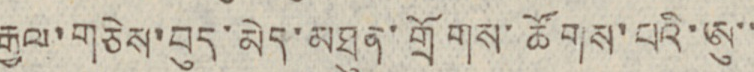རྒྱལ་གཅེས་བུད་མེད་མཐུན་གྲོགས་ཚོགས་པའི་ཨུ་་
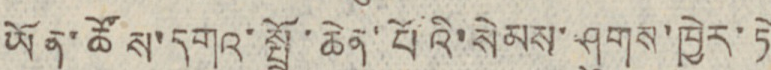ཡོན་ཚོས་དགའ་སྤྲོ་ཆེན་པོའི་སེམས་ཤུགས་ཁྱེར་ཏེ
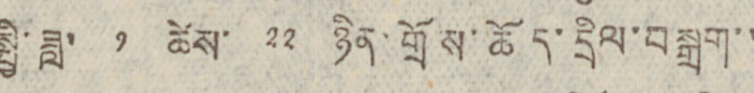སྤྱི་ཟླ་ ༡ ཚེས་ ༢༢ ཉིན་གྲོས་ཆོད་དྲིལ་བསྒྲག་་
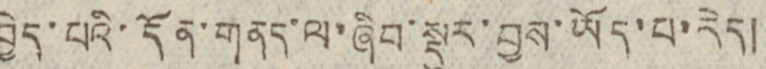བྱེད་པའི་དོན་གནད་ལ་ཞིབ་སྡུར་བྱས་ཡོད་པ་རེད།
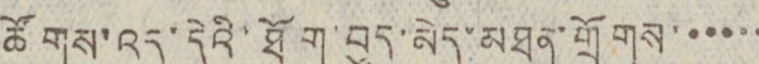ཚོགས་འདུ་དེའི་ཐོག་བུད་མེད་མཐུན་གྲོགས་་་་་་
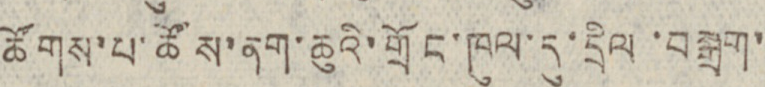ཚོགས་པ་ཚོས་ནག་ཆུའི་གྲོང་ཁུལ་དུ་དྲིལ་བསྒྲག་
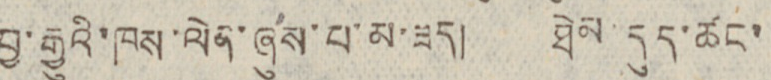བྱ་རྒྱུའི་ཁས་ལེན་ཞུས་པ་མ་ཟད། ཐེམ་དུད་ཚང་
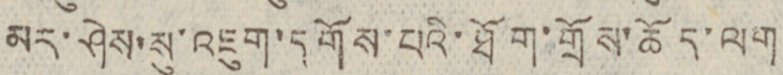མར་ཤེས་སུ་འཇུག་དགོས་པའི་ཐོག་གྲོས་ཆོད་ལག
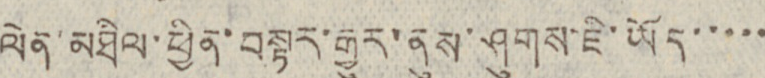ལེན་མཐིལ་ཕྱིན་བསྟར་རྒྱུར་ནུས་ཤུགས་ཇེ་ཡོད་་་་་
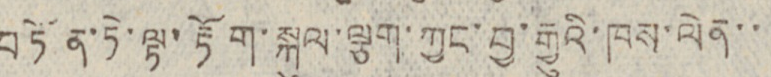བཏོན་ཏེ་ལྟ་རྟོག་སྐུལ་ལྕག་ཀྱང་བྱ་རྒྱུའི་ཁས་ལེན་་
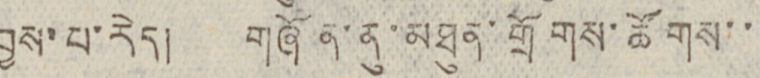བྱས་པ་རེད། གཞོན་ནུ་མཐུན་གྲོགས་ཚོགས་་
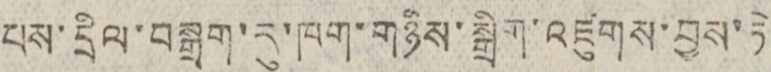པས་དྲིལ་བསྒྲག་རུ་ཁག་གཉིས་སྒྲིག་འཛུགས་བྱས་ཏེ
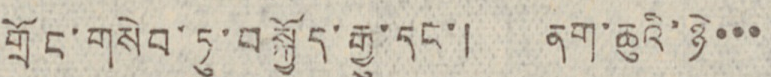གྲོང་གསེབ་ཏུ་བསྐྱོད་རྒྱུ་དང་། ནག་ཆུའི་ཉེ་་་
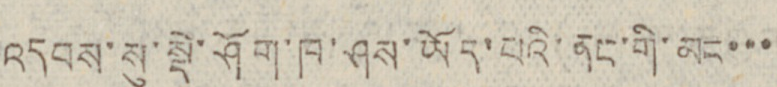འདབས་སུ་སྡེ་ཤོག་ཁ་ཤས་ཡོད་པའི་ནང་གི་མང་་་
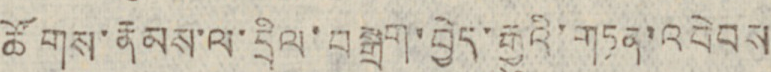ཚོགས་རྣམས་ལ་དྲིལ་བསྒྲག་བྱེད་རྒྱུའི་གཏན་འབེབས
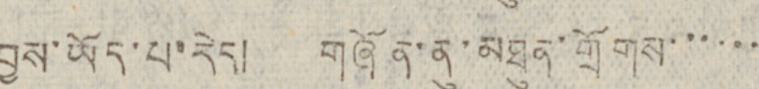བྱས་ཡོད་པ་རེད། གཞོན་ནུ་མཐུན་གྲོགས་་་་་་
